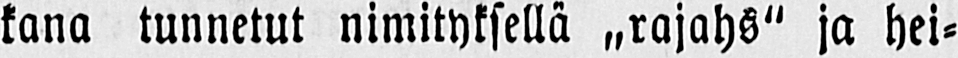kana tunnetut nimityksellä „rajahs" ja hei-
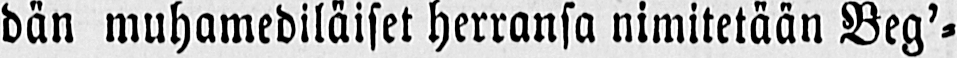dän muhamediläiset herransa nimitetään Beg’-
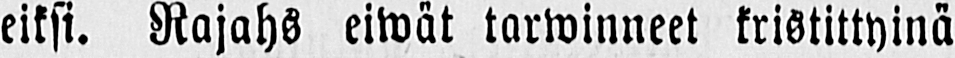eiksi. Rajahs eiwät tarwinneet kristittyinä
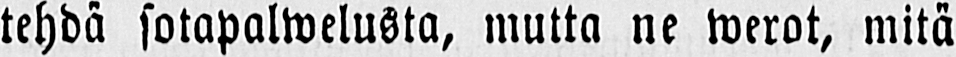tehdä sotapalwelusta, mutta ne werot, mitä
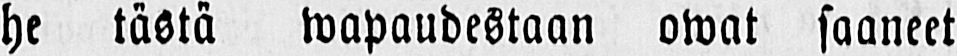he tästä wapaudestaan owat saaneet
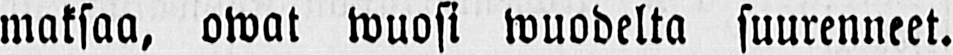maksaa, owat wuosi wuodelta suurenneet.
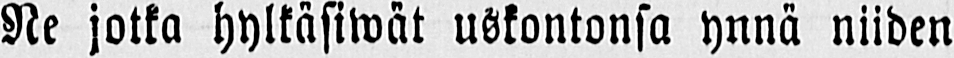Ne jotka hylkäsiwät uskontonsa ynnä niiden
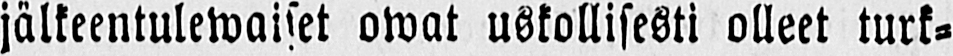jälkeentulewaiset owat uskollisesti olleet turk-
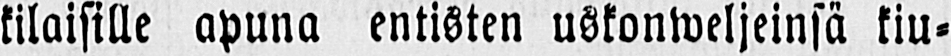kilaisille apuna entisten uskonweljeinsä kiu-
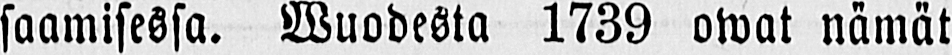saamisessa. Wuodesta 1739 owat nämät
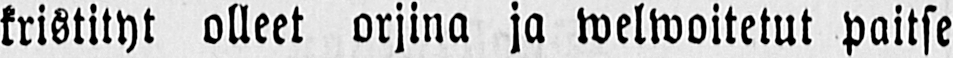kristityt olleet orjina ja welwoitetut paitse
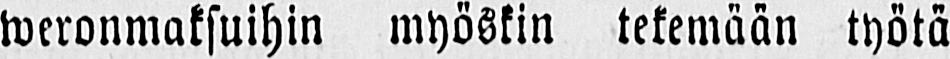weronmaksuihin myöskin tekemään työtä
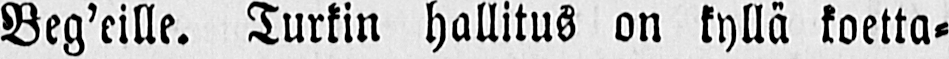Beg’eille. Turkin hallitus on kyllä koetta-
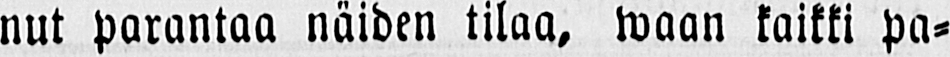nut parantaa näiden tilaa. Maan kaikki pa-
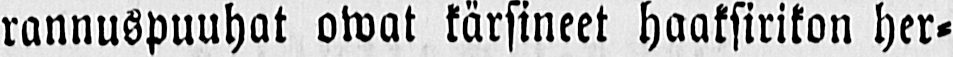rannuspuuhat owat kärsineet haaksirikon her-
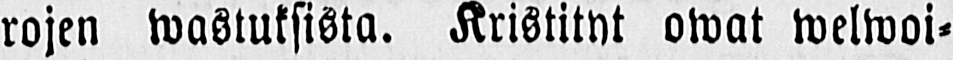rojen wastuksista. Kristityt owat welwoi-
